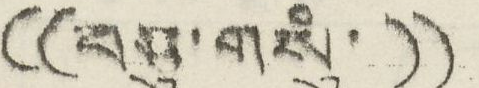(( བཅུ་གསུཾ་ ))
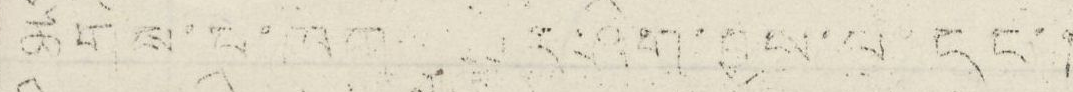ཚོགས་པ་ཁག་   ར་ཤིག་བྱས་པ དང་།
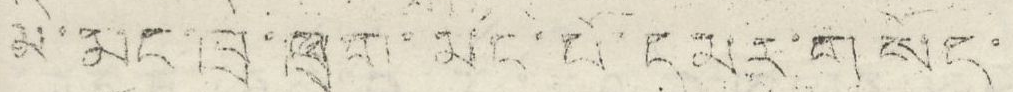མི་མང་ཁྲི་ཁྲག་མང་པོ་དམར་གསོད་
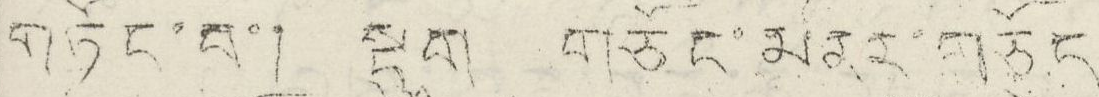གཏོང་བ་། སྡུག གཅོང་མནར་གཅོད
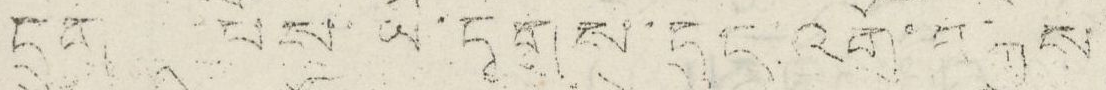དྲུག པོས་ཡི་དྭགས་དུད་འགྲོ་བསྐྲེས་
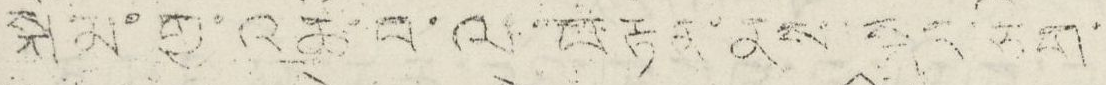སྐོམ་གྱི་འཚོ་བ་ལ་བརྟེན་ནས་སྐད་ཅིག་
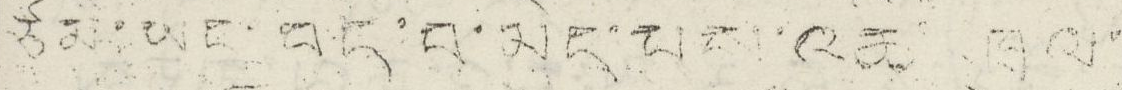ཙམ་ཡང་བདེ་བ་མེད་པས་འཆི ཁྲལ་
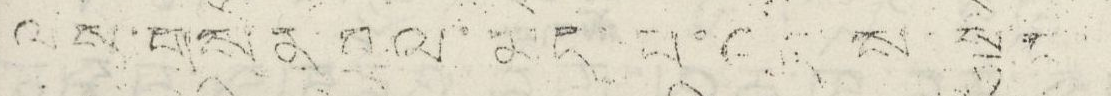ལས་གསོན བལ་མེད་པ་འདིས་སྟེང
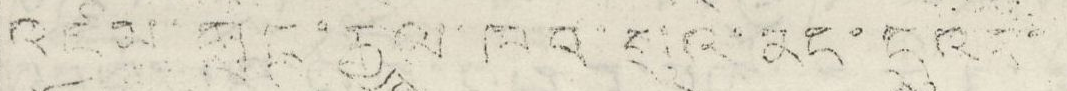འཛམ་གླིང་རྒྱལ་ཁབ་སུའི་མང་དུའང་
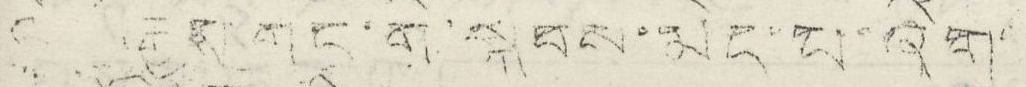ལོ ་རྒྱས་གང་གི་སྐབས་མེད་པ་ཞིག་
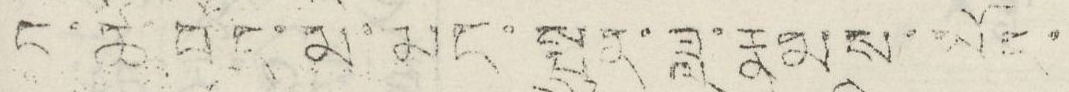ང་ཚོ་བོད་མི་མང་སྤུན་ཟླ་རྣམས་ཡོད་
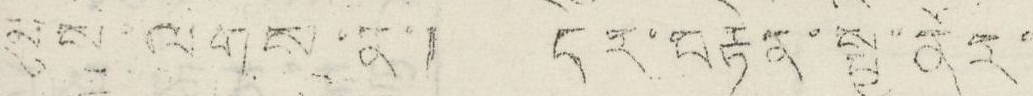མུས ལསག་ན་། དེར་བརྟེན་སྤྱི་ནོར་
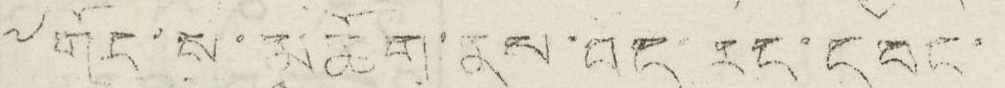༸གོང་ས་མཆོག་ནས་བོད་རང་དབང་
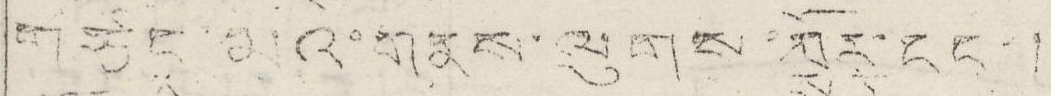གཙང་མའི་གནས་ལུགས་སྐོར་དང་།
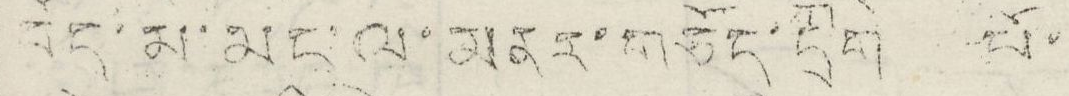བོད་མི་མང་ལ་མནར་གཅོད་དྲག པོ་
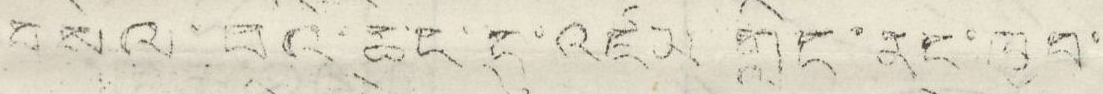བསེལ་བའི་ཆེད་དུ་འཛམ་གླིང་ནང་ཁྱབ་
